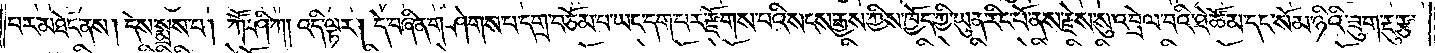པར་མཐོང་ནས། དེས་སྨྲས་པ། ཀཽ་ཤི་ཀ། འདི་ལྟར། དེ་བཞིན་གཤེགས་པ་དགྲ་བཅོམ་པ་ཡང་དག་པར་རྫོགས་པའི་སངས་རྒྱས་ཀྱིས་ཁྱོད་ཀྱི་ཡུན་རིང་པོ་ནས་རྗེས་སུ་འབྲེལ་བའི་ཐེ་ཚོམ་དང་སོམ་ཉིའི་ཟུག་རྔུ་རྩ་
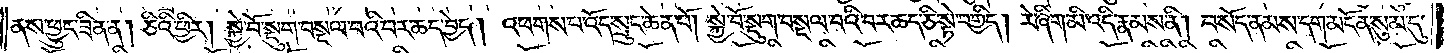ནས་ཕྱུང་ཟིན་ན། ཅིའི་ཕྱིར། སྐྱེ་བོ་སྡུག་བསྔལ་བའི་བར་ཆད་བྱེད། འཕགས་པ་འོད་སྲུང་ཆེན་པོ། སྐྱེ་བོ་སྡུག་བསྔལ་བའི་བར་ཆད་ཅི་སྟེ་བགྱིད། རེ་ཞིག་མི་འདི་རྣམས་ནི། བསོད་ནམས་དག་མངོན་སུམ་དུ་
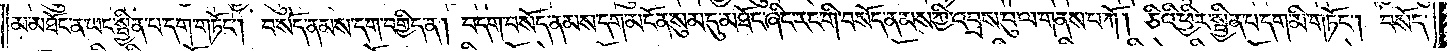མ་མཐོང་ན་ཡང་སྦྱིན་པ་དག་གཏོང༌། བསོད་ནམས་དག་བགྱིད་ན། བདག་བསོད་ནམས་དག་མངོན་སུམ་དུ་མཐོང་ཞིང་རང་གི་བསོད་ནམས་ཀྱི་འབྲས་བུ་ལ་གནས་པ་ཀོ། ཅིའི་ཕྱིར་སྦྱིན་པ་དག་མི་གཏོང༌། བསོད་
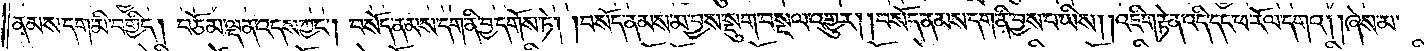ནམས་དག་མི་བགྱིད། བཅོམ་ལྡན་འདས་ཀྱང༌། བསོད་ནམས་དག་ནི་བྱ་དགོས་ཏེ། །བསོད་ནམས་མ་བྱས་སྡུག་བསྔལ་འགྱུར། །བསོད་ནམས་དག་ནི་བྱས་པ་ཡིས། །འཇིག་རྟེན་འདི་དང་ཕ་རོལ་དགའ། །ཞེས་མ་
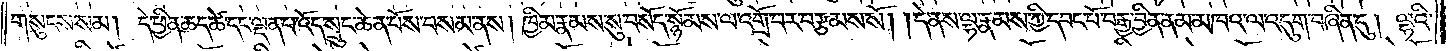གསུངས་སམ། དེ་ཕྱིན་ཆད་ཚེ་དང་ལྡན་པ་འོད་སྲུང་ཆེན་པོས་བསམ་ནས། ཁྱིམ་རྣམས་སུ་བསོད་སྙོམས་ལ་འགྲོ་བར་བརྩམས་སོ། །དེ་ནས་ལྷ་རྣམས་ཀྱི་དབང་པོ་བརྒྱ་བྱིན་ནམ་མཁའ་ལ་འདུག་བཞིན་དུ། ལྷའི་
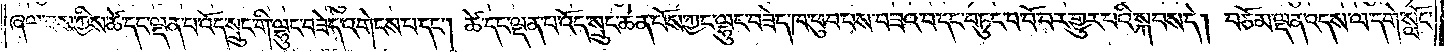ཞལ་ཟས་ཀྱིས་ཚེ་དང་ལྡན་པ་འོད་སྲུང་གི་ལྷུང་བཟེད་འགེངས་པ་དང༌། ཚེ་དང་ལྡན་པ་འོད་སྲུང་ཆེན་པོས་ཀྱང་ལྷུང་བཟེད་ཁ་ཕུབ་པས་བཟའ་བ་དང་བཏུང་བ་བོ་བར་གྱུར་པའི་སྐབས་དེ། བཅོམ་ལྡན་འདས་ལ་དགེ་སློང་
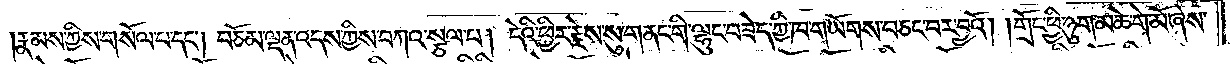རྣམས་ཀྱིས་གསོལ་པ་དང༌། བཅོམ་ལྡན་འདས་ཀྱིས་བཀའ་སྩལ་པ། དེའི་ཕྱིར་རྗེས་སུ་གནང་གི་ལྷུང་བཟེད་ཀྱི་ཁ་གཡོགས་བཅང་བར་བྱའོ། །གྲོང་ཕྱི་ཉུག་མཆེ་གེ་མོ་ཞེས་
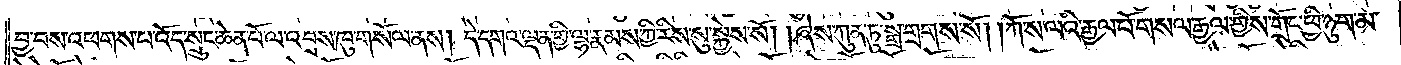བྱ་བས་འཕགས་པ་འོད་སྲུང་ཆེན་པོ་ལ་འབྲས་ཁུ་གསོལ་ནས། དེ་དགའ་ལྡན་གྱི་ལྷ་རྣམས་ཀྱི་རིས་སུ་སྐྱེས་སོ། །ཞེས་ཀུན་ཏུ་སྒྲ་གྲགས་སོ། །ཀོ་ས་ལའི་རྒྱལ་པོ་གསལ་རྒྱལ་གྱིས་གྲོང་ཕྱི་ཉུག་མ་
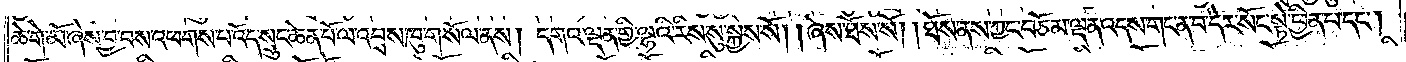ཆེ་གེ་མོ་ཞེས་བྱ་བས་འཕགས་པ་འོད་སྲུང་ཆེན་པོ་ལ་འབྲས་ཁུ་གསོལ་ནས། དགའ་ལྡན་གྱི་ལྷའི་རིས་སུ་སྐྱེས་སོ། །ཞེས་ཐོས་སོ། །ཐོས་ནས་ཀྱང་བཅོམ་ལྡན་འདས་གང་ན་བ་དེར་སོང་སྟེ་ཕྱིན་པ་དང༌།
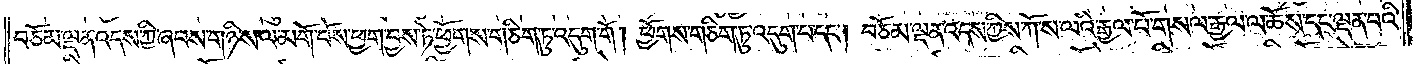བཅོམ་ལྡན་འདས་ཀྱི་ཞབས་གཉིས་ལ་མགོ་བོས་ཕྱག་བྱས་ཏེ་ཕྱོགས་གཅིག་ཏུ་འདུག་གོ །ཕྱོགས་གཅིག་ཏུ་འདུག་པ་དང༌། བཅོམ་ལྡན་འདས་ཀྱིས་ཀོ་ས་ལའི་རྒྱལ་པོ་གསལ་རྒྱལ་ལ་ཆོས་དང་ལྡན་པའི་
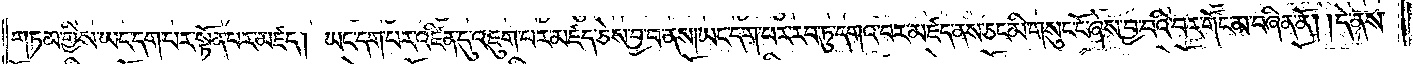གཏམ་གྱིས་ཡང་དག་པར་སྟོན་པར་མཛད། ཡང་དག་པར་འཛིན་དུ་འཇུག་པར་མཛད་ཅེས་བྱ་བ་ནས། ཡང་དག་པར་རབ་ཏུ་དགའ་བར་མཛད་ནས་ཅང་མི་གསུང་ངོ་ཞེས་བྱ་བའི་བར་གོང་མ་བཞིན་ནོ། །དེ་ནས་
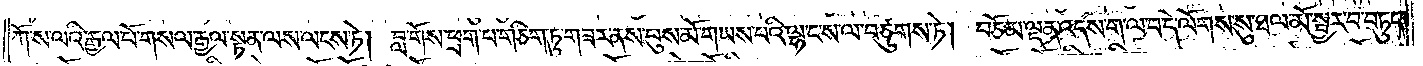ཀོ་ས་ལའི་རྒྱལ་པོ་གསལ་རྒྱལ་སྟན་ལས་ལངས་ཏེ། བླ་གོས་ཕྲག་པ་གཅིག་ཏུ་གཟར་ནས་པུས་མོ་གཡས་པའི་ལྷ་ང་ས་ལ་བཙུགས་ཏེ། བཅོམ་ལྡན་འདས་ག་ལ་བ་དེ་ལོགས་སུ་ཐལ་མོ་སྦྱར་བ་བཏུད་
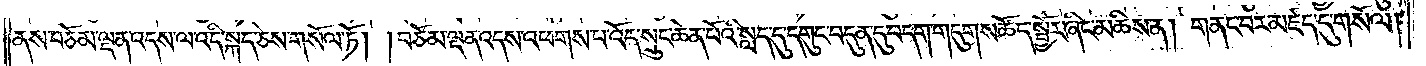ནས་བཅོམ་ལྡན་འདས་ལ་འདི་སྐད་ཅེས་གསོལ་ཏོ། །བཅོམ་ལྡན་འདས་འཕགས་པ་འོད་སྲུང་ཆེན་པོའི་སླད་དུ་དགུང་བདུན་དུ་བདག་གདུགས་ཚོད་སྦྱོར་ཞིང་མཆིས་ན། གནང་བར་མཛད་དུ་གསོལ།
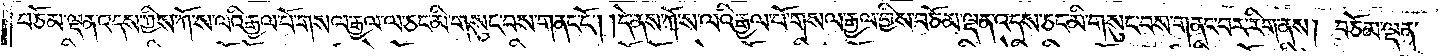བཅོམ་ལྡན་འདས་ཀྱིས་ཀོ་ས་ལའི་རྒྱལ་པོ་གསལ་རྒྱལ་ལ་ཅང་མི་གསུང་བས་གནང་ངོ༌། །དེ་ནས་ཀོ་ས་ལའི་རྒྱལ་པོ་གསལ་རྒྱལ་གྱིས་བཅོམ་ལྡན་འདས་ཅང་མི་གསུང་བས་གནང་བར་རིག་ནས། བཅོམ་ལྡན་
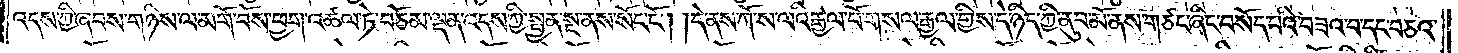འདས་ཀྱི་ཞབས་གཉིས་ལ་མགོ་བོས་ཕྱག་འཚལ་ཏེ་བཅོམ་ལྡན་འདས་ཀྱི་སྤྱན་སྔ་ནས་སོང་ངོ༌། །དེ་ནས་ཀོ་ས་ལའི་རྒྱལ་པོ་གསལ་རྒྱལ་གྱིས་དེ་ཉིད་ཀྱི་ནུབ་མོ་ནས་གཙང་ཞིང་བསོད་པའི་བཟའ་བ་དང་བཅའ་
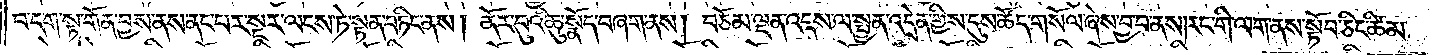བ་དག་སྟ་གོན་བྱས་ནས་ནང་པར་སྔར་ལངས་ཏེ་སྟན་བཏིང་ནས། ནོར་བུའི་ཆུ་སྣོད་བཞག་ནས། བཅོམ་ལྡན་འདས་ལ་སྤྱན་འདྲེན་གྱིས་དུས་ཚོད་གསོལ་ཞེས་བྱ་བ་ནས། རང་གི་ལག་ནས་སྟོབ་ཅིང་ཚིམ་
